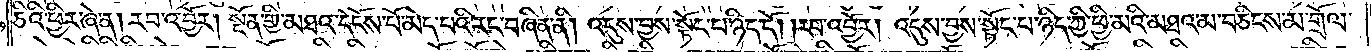ཅིའི་ཕྱིར་ཞེ་ན། རབ་འབྱོར། སྔོན་གྱི་མཐའ་དངོས་པོ་མེད་པའི་རང་བཞིན་ནི། འདུས་བྱས་སྟོང་པ་ཉིད་དོ། །རབ་འབྱོར། འདུས་བྱས་སྟོང་པ་ཉིད་ཀྱི་ཕྱི་མའི་མཐའ་མ་བཅིངས་མ་གྲོལ་
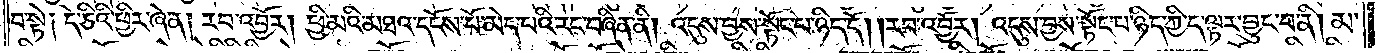བ་སྟེ༑ དེ་ཅིའི་ཕྱིར་ཞེ་ན། རབ་འབྱོར། ཕྱི་མའི་མཐའ་དངོས་པོ་མེད་པའི་རང་བཞིན་ནི། འདུས་བྱས་སྟོང་པ་ཉིད་དོ། །རབ་འབྱོར། འདུས་བྱས་སྟོང་པ་ཉིད་ཀྱི་ད་ལྟར་བྱུང་བ་ནི། མ་
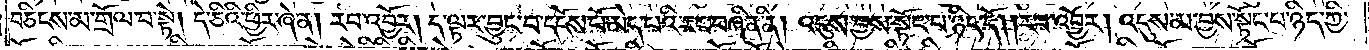བཅིངས་མ་གྲོལ་བ་སྟེ། དེ་ཅིའི་ཕྱིར་ཞེ་ན། རབ་འབྱོར། ད་ལྟར་བྱུང་བ་དངོས་པོ་མེད་པའི་རང་བཞིན་ནི། འདུས་བྱས་སྟོང་པ་ཉིད་དོ། །རབ་འབྱོར། འདུས་མ་བྱས་སྟོང་པ་ཉིད་ཀྱི་
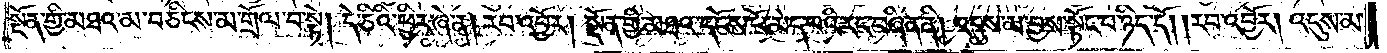སྔོན་གྱི་མཐའ་མ་བཅིངས་མ་གྲོལ་བ་སྟེ། དེ་ཅིའི་ཕྱིར་ཞེ་ན། རབ་འབྱོར། སྔོན་གྱི་མཐའ་དངོས་པོ་མེད་པའི་རང་བཞིན་ནི། འདུས་མ་བྱས་སྟོང་པ་ཉིད་དོ། །རབ་འབྱོར། འདུས་མ་
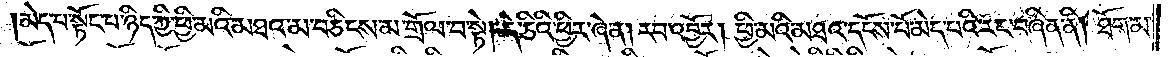མེད་པ་སྟོང་པ་ཉིད་ཀྱི་ཕྱི་མའི་མཐའ་མ་བཅིངས་མ་གྲོལ་བ་སྟེ། དེ་ཅིའི་ཕྱིར་ཞེ་ན། རབ་འབྱོར། ཕྱི་མའི་མཐའ་དངོས་པོ་མེད་པའི་རང་བཞིན་ནི། ཐོག་མ་
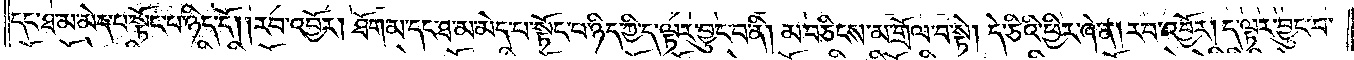དང་ཐ་མ་མེད་པ་སྟོང་པ་ཉིད་དོ། །རབ་འབྱོར། ཐོག་མ་དང་ཐ་མ་མེད་པ་སྟོང་པ་ཉིད་ཀྱི་ད་ལྟར་བྱུང་བ་ནི། མ་བཅིངས་མ་གྲོལ་བ་སྟེ། དེ་ཅིའི་ཕྱིར་ཞེ་ན། རབ་འབྱོར། ད་ལྟར་བྱུང་བ་
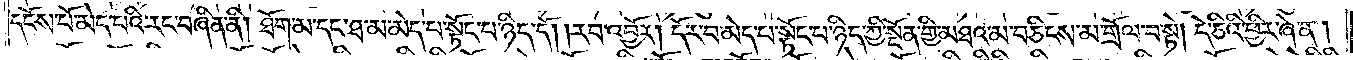དངོས་པོ་མེད་པའི་རང་བཞིན་ནི། ཐོག་མ་དང་ཐ་མ་མེད་པ་སྟོང་པ་ཉིད་དོ། །རབ་འབྱོར། དོར་བ་མེད་པ་སྟོང་པ་ཉིད་ཀྱི་སྔོན་གྱི་མཐའ་མ་བཅིངས་མ་གྲོལ་བ་སྟེ། དེ་ཅིའི་ཕྱིར་ཞེ་ན།
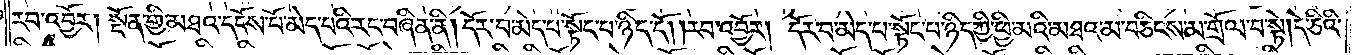རབ་འབྱོར། སྔོན་གྱི་མཐའ་དངོས་པོ་མེད་པའི་རང་བཞིན་ནི། དོར་བ་མེད་པ་སྟོང་པ་ཉིད་དོ། །རབ་འབྱོར། དོར་བ་མེད་པ་སྟོང་པ་ཉིད་ཀྱི་ཕྱི་མའི་མཐའ་མ་བཅིངས་མ་གྲོལ་བ་སྟེ། དེ་ཅིའི་
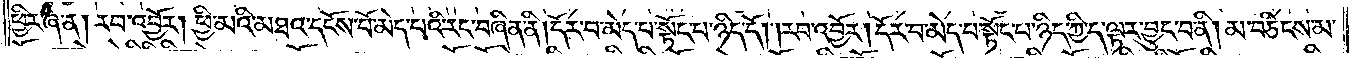ཕྱིར་ཞེ་ན། རབ་འབྱོར། ཕྱི་མའི་མཐའ་དངོས་པོ་མེད་པའི་རང་བཞིན་ནི། དོར་བ་མེད་པ་སྟོང་པ་ཉིད་དེ། །རབ་འབྱོར། དོར་བ་མེད་པ་སྟོང་པ་ཉིད་ཀྱི་ད་ལྟར་བྱུང་བ་ནི། མ་བཅིངས་མ་
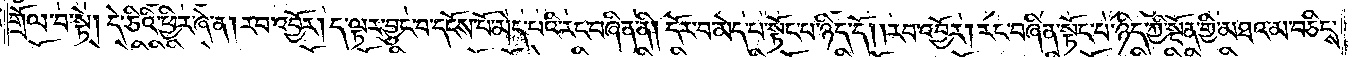གྲོལ་བ་སྟེ། དེ་ཅིའི་ཕྱིར་ཞེ་ན། རབ་འབྱོར། ད་ལྟར་བྱུང་བ་དངོས་པོ་མེད་པའི་རང་བཞིན་ནི། དོར་བ་མེད་པ་སྟོང་པ་ཉིད་དོ། །རབ་འབྱོར། རང་བཞིན་སྟོང་པ་ཉིད་ཀྱི་སྔོན་གྱི་མཐའ་མ་བཅིངས་
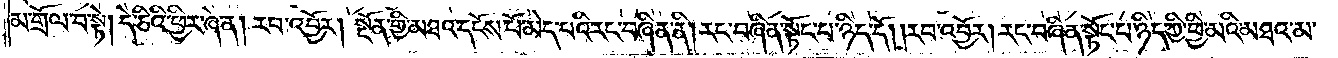མ་གྲོལ་བ་སྟེ། དེ་ཅིའི་ཕྱིར་ཞེ་ན། རབ་འབྱོར། སྔོན་གྱི་མཐའ་དངོས་པོ་མེད་པའི་རང་བཞིན་ནི། རང་བཞིན་སྟོང་པ་ཉིད་དོ། །རབ་འབྱོར། རང་བཞིན་སྟོང་པ་ཉིད་ཀྱི་ཕྱི་མའི་མཐའ་མ་
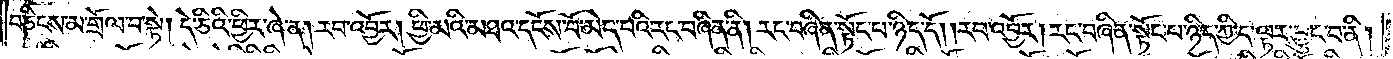བཅིངས་མ་གྲོལ་བ་སྟེ། དེ་ཅིའི་ཕྱིར་ཞེ་ན། རབ་འབྱོར། ཕྱི་མའི་མཐའ་དངོས་པོ་མེད་པའི་རང་བཞིན་ནི། རང་བཞིན་སྟོང་པ་ཉིད་དོ། །རབ་འབྱོར། རང་བཞིན་སྟོང་པ་ཉིད་ཀྱི་ད་ལྟར་བྱུང་བ་ནི།
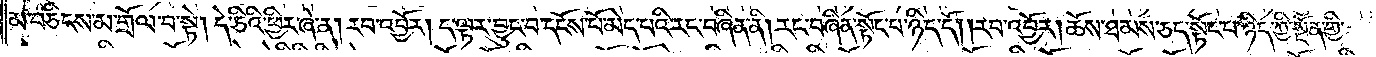མ་བཅིངས་མ་གྲོལ་བ་སྟེ། དེ་ཅིའི་ཕྱིར་ཞེ་ན། རབ་འབྱོར། ད་ལྟར་བྱུང་བ་དངོས་པོ་མེད་པའི་རང་བཞིན་ནི། རང་བཞིན་སྟོང་པ་ཉིད་དོ། །རབ་འབྱོར། ཆོས་ཐམས་ཅད་སྟོང་པ་ཉིད་ཀྱི་སྔོན་གྱི་
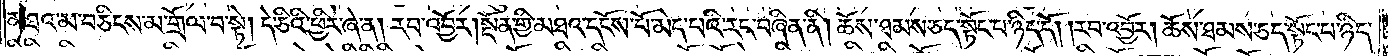མཐའ་མ་བཅིངས་མ་གྲོལ་བ་སྟེ། དེ་ཅིའི་ཕྱིར་ཞེ་ན། རབ་འབྱོར། སྔོན་གྱི་མཐའ་དངོས་པོ་མེད་པའི་རང་བཞིན་ནི། ཆོས་ཐམས་ཅད་སྟོང་པ་ཉིད་དོ། །རབ་འབྱོར། ཆོས་ཐམས་ཅད་སྟོང་པ་ཉིད་
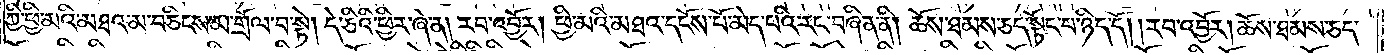ཀྱི་ཕྱི་མའི་མཐའ་མ་བཅིངས་མ་གྲོལ་བ་སྟེ། དེ་ཅིའི་ཕྱིར་ཞེ་ན། རབ་འབྱོར། ཕྱི་མའི་མཐའ་དངོས་པོ་མེད་པའི་རང་བཞིན་ནི། ཆོས་ཐམས་ཅད་སྟོང་པ་ཉིད་དོ། །རབ་འབྱོར། ཆོས་ཐམས་ཅད་
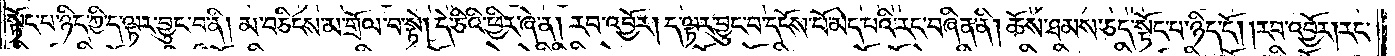སྟོང་པ་ཉིད་ཀྱི་ད་ལྟར་བྱུང་བ་ནི། མ་བཅིངས་མ་གྲོལ་བ་སྟེ། དེ་ཅིའི་ཕྱིར་ཞེ་ན། རབ་འབྱོར། ད་ལྟར་བྱུང་བ་དངོས་པོ་མེད་པའི་རང་བཞིན་ནི། ཆོས་ཐམས་ཅད་སྟོང་པ་ཉིད་དོ། །རབ་འབྱོར། རང་
